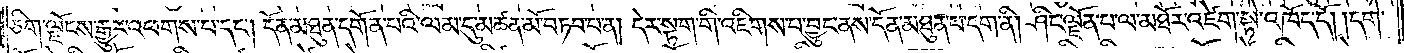ཅིག་ལྗོངས་རྒྱུར་འཕགས་པ་དང༌། དོན་མཐུན་དགོན་པའི་ལམ་དུ་མཚན་མོ་བཏབ་པ་ན། དེར་སྟག་གི་འཇིགས་པ་བྱུང་ནས་དོན་མཐུན་པ་དག་ནི། ཤིང་ལྗོན་པ་ལ་མཐོར་འཛེག་སྟེ་འཁོད་དོ། །དགེ་
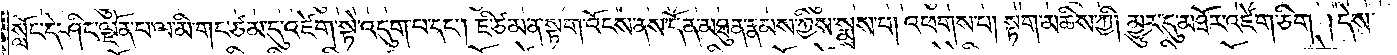སློང་དེ་ཤིང་ལྗོན་པ་ལ་མི་གང་ཙམ་དུ་འཛེག་སྟེ་འདུག་པ་དང༌། ཇི་ཙམ་ན་སྟག་འོངས་ནས་དོན་མཐུན་རྣམས་ཀྱིས་སྨྲས་པ། འཕགས་པ། སྟག་མཆིས་ཀྱི། མྱུར་དུ་མཐོར་འཛེག་ཅིག །དེས་
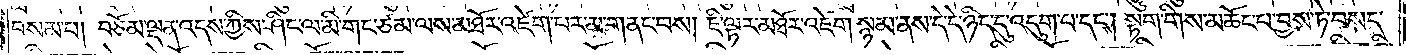བསམ་པ། བཅོམ་ལྡན་འདས་ཀྱིས་ཤིང་ལ་མི་གང་ཙམ་ལས་མཐོར་འཛེག་པར་མ་གནང་བས། ཇི་ལྟར་མཐོར་འཛེག་སྙམ་ནས་དེ་དེ་ཉིད་དུ་འདུག་པ་དང༌། སྟག་གིས་མཆོང་པ་བྱས་ཏེ་བསད་
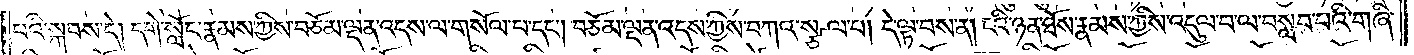པའི་སྐབས་དེ། དགེ་སློང་རྣམས་ཀྱིས་བཅོམ་ལྡན་འདས་ལ་གསོལ་པ་དང༌། བཅོམ་ལྡན་འདས་ཀྱིས་བཀའ་སྩལ་པ། དེ་ལྟ་བས་ན། ངའི་ཉན་ཐོས་རྣམས་ཀྱིས་འདུལ་བ་ལ་བསླབ་པའི་གཞི་
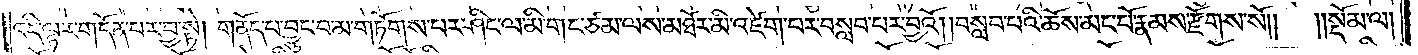འདི་ལྟར་གདོན་པར་བྱ་སྟེ། གནོད་པ་བྱུང་བ་མ་གཏོགས་པར་ཤིང་ལ་མི་གང་ཙམ་ལས་མཐོར་མི་འཛེག་པར་བསླབ་པར་བྱའོ། །བསླབ་པའི་ཆོས་མང་པོ་རྣམས་རྫོགས་སོ༎ ༎སྡོམ་ལ།
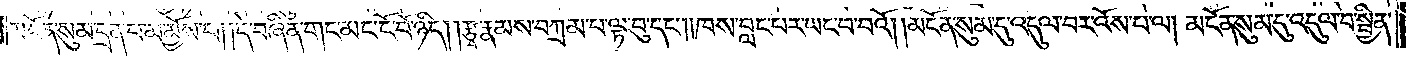མངོན་སུམ་དྲན་པ་མ་མྱོས་པ། །དེ་བཞིན་གང་མང་ངོ་བོ་ཉིད། །རྩྭ་རྣམས་བཀྲམ་པ་ལྟ་བུ་དང༌། ཁས་བླངས་པར་ཡང་བ་བའོ། །མངོན་སུམ་དུ་འདུལ་བར་འོས་པ་ལ། མངོན་སུམ་དུ་འདུལ་བ་སྦྱིན་
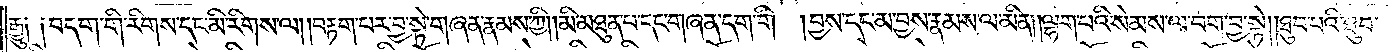རྒྱུ༑ ༑བདག་གི་རིགས་དང་མི་རིགས་ལ། །བརྟག་པར་བྱ་སྟེ་གཞན་རྣམས་ཀྱི། །མི་མཐུན་པ་དང་གཞན་དག་གི། བྱས་དང་མ་བྱས་རྣམས་ལ་མིན། །ལྷག་པའི་སེམས་ལ་བག་བྱ་སྟེ། །ཐུབ་པའི་ཐུབ་
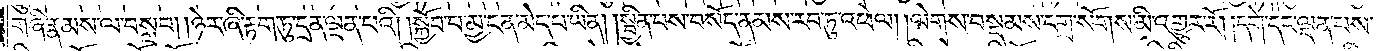གཞི་རྣམས་ལ་བསླབ། །ཉེར་ཞི་རྟག་ཏུ་དྲན་ལྡན་པའི། །སྐྱོབ་པ་མྱ་ངན་མེད་པ་ཡིན། །སྦྱིན་པས་བསོད་ནམས་རབ་ཏུ་འཕེལ། །ལེགས་བསྡམས་དགྲ་སོགས་མི་འགྱུར་རོ། །དགེ་དང་ལྡན་པས་
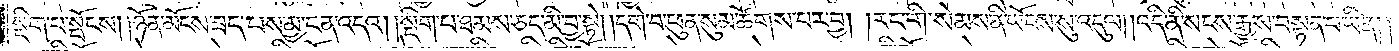སྡིག་པ་སྤོངས། །ཉོན་མོངས་ཟད་པས་མྱ་ངན་འདའ། །སྡིག་པ་ཐམས་ཅད་མི་བྱ་སྟེ། །དགེ་བ་ཕུན་སུམ་ཚོགས་པར་བྱ། །རང་གི་སེམས་ནི་ཡོངས་སུ་འདུལ། །འདི་ནི་སངས་རྒྱས་བསྟན་པ་ཡིན། །
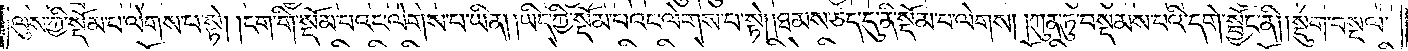ལུས་ཀྱི་སྡོམ་པ་ལེགས་པ་སྟེ། །ངག་གི་སྡོམ་པའང་ལེགས་པ་ཡིན། །ཡིད་ཀྱི་སྡོམ་པའང་ལེགས་པ་སྟེ། །ཐམས་ཅད་དུ་ནི་སྡོམ་པ་ལེགས། །ཀུན་ཏུ་བསྡམས་པའི་དགེ་སྦྱོང་ནི། །སྡུག་བསྔལ་
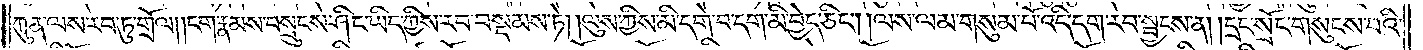ཀུན་ལས་རབ་ཏུ་གྲོལ། །ངག་རྣམས་བསྲུངས་ཤིང་ཡིད་ཀྱིས་རབ་བསྡམས་ཏེ། །ལུས་ཀྱིས་མི་དགེ་བ་དག་མི་བྱེད་ཅིང༌། །ལས་ལམ་གསུམ་པོ་འདི་དག་རབ་སྦྱངས་ན། །དྲང་སྲོང་གསུངས་པའི་
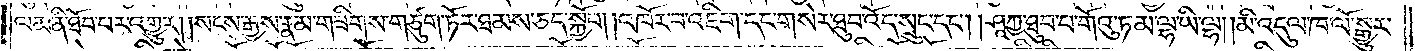ལམ་ནི་ཐོབ་པར་འགྱུར། །སངས་རྒྱས་རྣམ་གཟིགས་གཙུག་ཏོར་ཐམས་ཅད་སྐྱོབ། །འཁོར་བ་འཇིག་དང་གསེར་ཐུབ་འོད་སྲུང་དང༌། །ཤཱཀྱ་ཐུབ་པ་གོའུ་ཏམ་ལྷ་ཡི་ལྷ། །མི་འདུལ་ཁ་ལོ་སྒྱུར་
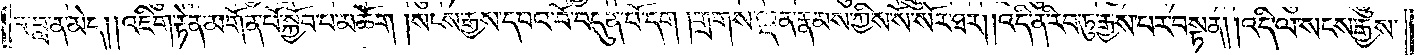བ་བླ་ན་མེད། །འཇིག་རྟེན་མགོན་པོ་སྐྱོབ་པ་མཆོག །སངས་རྒྱས་དཔའ་བོ་བདུན་པོ་དག །གྲགས་ལྡན་རྣམས་ཀྱིས་སོ་སོར་ཐར། །འདི་ནི་རབ་ཏུ་རྒྱས་པར་བསྟན། །འདི་ལ་སངས་རྒྱས་
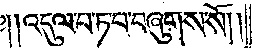༄༅༎འདུལ་བ་ཏ་པ་བཞུགས་སོ༎
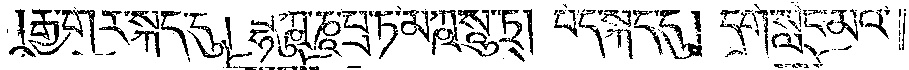རྒྱ་གར་སྐད་དུ། བྷིཀྵུ་ཎཱི་པྲ་ཏི་མོཀྵ་སཱུ་ཏྲ། བོད་སྐད་དུ། དགེ་སློང་མའི་
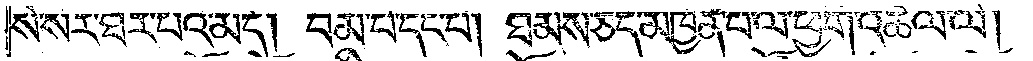སོ་སོར་ཐར་པའི་མདོ། བམ་པོ་དང་པོ། ཐམས་ཅད་མཁྱེན་པ་ལ་ཕྱག་འཚལ་ལོ།
